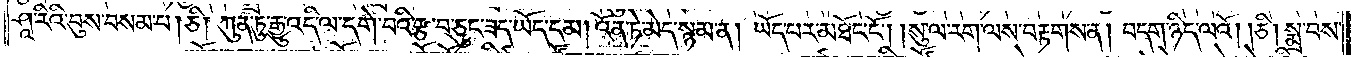ཤཱ་རིའི་བུས་བསམ་པ། ཅི། ཀུན་ཏུ་རྒྱུ་འདི་ལ་དགེ་བའི་རྩ་བ་ཅུང་ཟད་ཡོད་དམ། འོན་ཏེ་མེད་སྙམ་ན། ཡོད་པར་མཐོང་ངོ༌། །སུ་ལ་རག་ལས་བརྟགས་ན། བདག་ཉིད་ལའོ། །ཅི། སྨྲ་བས་
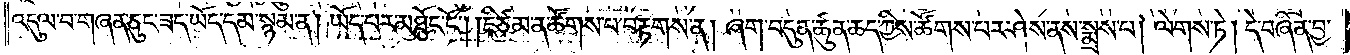འདུལ་བ་གཞན་ཅུང་ཟད་ཡོད་དམ་སྙམ་ན། ཡོད་པར་མཐོང་ངོ༌། །ཇི་ཙམ་ན་ཚོགས་པ་བརྟགས་ན། ཞག་བདུན་ཚུན་ཆད་ཀྱིས་ཚོགས་པར་ཤེས་ནས་སྨྲས་པ། ལེགས་ཏེ། དེ་བཞིན་བྱ་
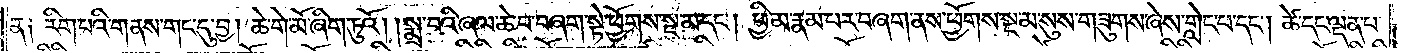ན༑ རིག་པའི་གནས་གང་དུ་བྱ། ཆེ་གེ་མོ་ཞིག་ཏུའོ། །སྨྲ་བའི་ཞལ་ཆེ་བ་བཞག་སྟེ་ཕྱོགས་སྔ་མ་དང༌། ཕྱི་མ་རྣམ་པར་བཞག་ནས་ཕྱོགས་སྔ་མ་སུས་གཟུགས་ཞེས་གླེང་པ་དང༌། ཚེ་དང་ལྡན་པ་
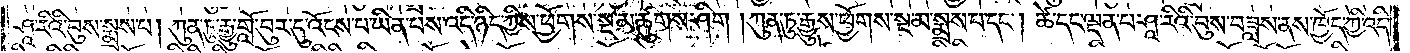ཤཱ་རིའི་བུས་སྨྲས་པ། ཀུན་ཏུ་རྒྱུ་གློ་བུར་དུ་འོངས་པ་ཡིན་པས་འདི་ཉིད་ཀྱིས་ཕྱོགས་སྔ་མ་ཚུགས་ཤིག ། ཀུན་ཏུ་རྒྱུས་ཕྱོགས་སྔ་མ་སྨྲས་པ་དང༌། ཚེ་དང་ལྡན་པ་ཤཱ་རིའི་བུས་བཟླས་ནས་ཁྱོད་ཀྱི་འདི་
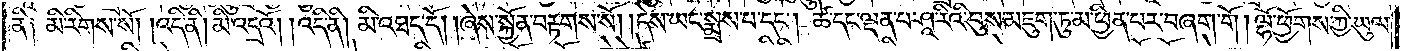ནི། མི་རིགས་སོ། །འདི་ནི། མི་འདྲའོ། །འདི་ནི། མི་འཐད་དོ། །ཞེས་སྐྱོན་བརྟགས་སོ། །དེས་ཡང་སྨྲས་པ་དང༌། ཚེ་དང་ལྡན་པ་ཤཱ་རིའི་བུས་མཇུག་ཏུ་མ་ཕྱིན་བར་བཞག་གོ། ལྷོ་ཕྱོགས་ཀྱི་ཡུལ་
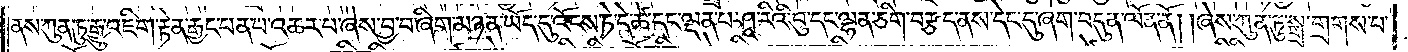ནས་ཀུན་ཏུ་རྒྱུ་འཇིག་རྟེན་རྒྱང་པན་པ་འཆར་པ་ཞེས་བྱ་བ་ཞིག་མཉན་ཡོད་དུ་འོངས་ཏེ་དེ་ཚེ་དང་ལྡན་པ་ཤཱ་རིའི་བུ་དང་ལྷན་ཅིག་བརྩད་ནས་དེང་དུ་ཞག་བདུན་ལོན་ནོ། །ཞེས་ཀུན་ཏུ་སྒྲ་གྲགས་པ་
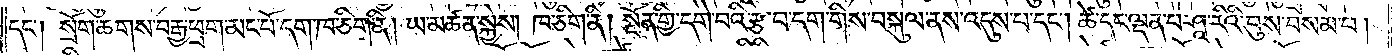དང༌། སྲོག་ཆགས་བརྒྱ་ཕྲག་མང་པོ་དག་ཁ་ཅིག་ནི། ཡ་མཚན་སྐྱེས། ཁ་ཅིག་ནི། སྔོན་གྱི་དགེ་བའི་རྩ་བ་དག་གིས་བསྐུལ་ནས་འདུས་པ་དང༌། ཚེ་དང་ལྡན་པ་ཤཱ་རིའི་བུས་བསམ་པ།
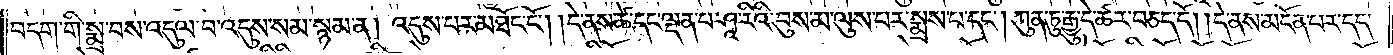བདག་གི་སྨྲ་བས་འདུལ་བ་འདུས་སམ་སྙམ་ན། འདུས་པར་མཐོང་ངོ༌། །དེ་ནས་ཚེ་དང་ལྡན་པ་ཤཱ་རིའི་བུས་མ་ལུས་པར་སྨྲས་པ་དང༌། ཀུན་ཏུ་རྒྱུ་དེ་ཚར་བཅད་དོ། །དེ་ནས་མངོན་པར་དད་
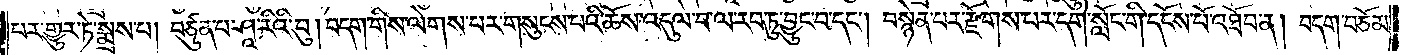བར་གྱུར་ཏེ་སྨྲས་པ། བཙུན་པ་ཤཱ་རིའི་བུ། བདག་གིས་ལེགས་པར་གསུངས་པའི་ཆོས་འདུལ་བ་ལ་རབ་ཏུ་བྱུང་བ་དང༌། བསྙེན་པར་རྫོགས་པར་དགེ་སློང་གི་དངོས་པོ་འཐོབ་ན། བདག་བཅོམ་
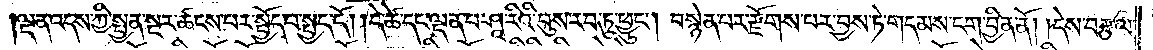ལྡན་འདས་ཀྱི་སྤྱན་སྔར་ཚངས་པར་སྤྱོད་པ་སྤྱད་དོ། །དེ་ཚེ་དང་ལྡན་པ་ཤཱ་རིའི་བུས་རབ་ཏུ་ཕྱུང༌། བསྙེན་པར་རྫོགས་པར་བྱས་ཏེ་གདམས་ངག་བྱིན་ནོ། །དེས་བརྩལ་
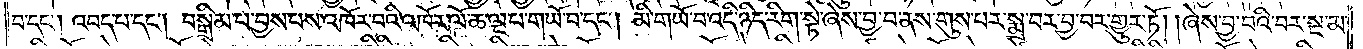བ་དང༌། འབད་པ་དང༌། བསྒྲིམ་པ་བྱས་པས་འཁོར་བའི་འཁོར་ལོ་ཆ་ལྔ་པ་གཡོ་བ་དང༌། མི་གཡོ་བ་འདི་ཉིད་རིག་སྟེ་ཞེས་བྱ་བ་ནས་གུས་པར་སྨྲ་བར་བྱ་བར་གྱུར་ཏོ། །ཞེས་བྱ་བའི་བར་སྔ་མ་
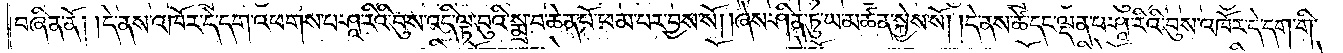བཞིན་ནོ། །དེ་ནས་འཁོད་དེ་དག་འཕགས་པ་ཤཱ་རིའི་བུས་འདི་ལྟ་བུའི་སྨྲ་བ་ཆེན་པོ་ཕམ་པར་བྱས་སོ། །ཞེས་ཤིན་ཏུ་ཡ་མཚན་སྐྱེས་སོ། །དེ་ནས་ཚེ་དང་ལྡན་པ་ཤཱ་རིའི་བུས་འཁོར་དེ་དག་གི་
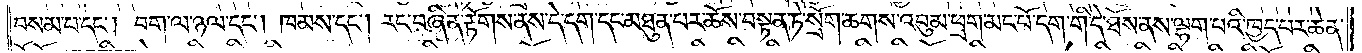བསམ་པ་དང༌། བག་ལ་ཉལ་དང༌། ཁམས་དང༌། རང་བཞིན་རྟོགས་ནས་དེ་དག་དང་མཐུན་པར་ཆོས་བསྟན་ཏེ་སྲོག་ཆགས་འབུམ་ཕྲག་མང་པོ་དག་གི་དེ་ཐོས་ནས་ལྷག་པའི་ཁྱད་པར་ཆེན་
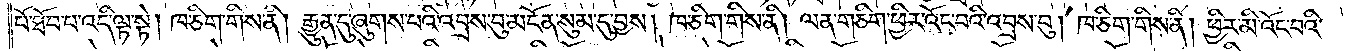པོ་ཐོབ་པ་འདི་ལྟ་སྟེ། ཁ་ཅིག་གིས་ནི། རྒྱུན་དུ་ཞུགས་པའི་འབྲས་བུ་མངོན་སུམ་དུ་བྱས། ཁ་ཅིག་གིས་ནི། ལན་གཅིག་ཕྱིར་འོང་བའི་འབྲས་བུ། ཁ་ཅིག་གིས་ནི། ཕྱིར་མི་འོང་བའི་
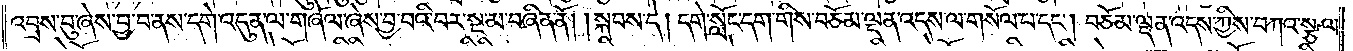འབྲས་བུ་ཞེས་བྱ་བ་ནས་དགེ་འདུན་ལ་གཞོལ་ཞེས་བྱ་བའི་བར་སྔ་མ་བཞིན་ནོ། །སྐབས་དེ། དགེ་སློང་དག་གིས་བཅོམ་ལྡན་འདས་ལ་གསོལ་པ་དང༌། བཅོམ་ལྡན་འདས་ཀྱིས་བཀའ་སྩལ་
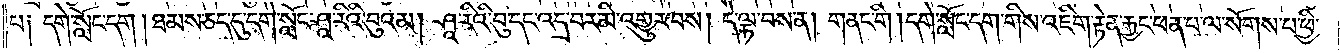པ༑ དགེ་སློང་དག །ཐམས་ཅད་དུ་དགེ་སློང་ཤཱ་རིའི་བུའམ། ཤཱ་རིའི་བུ་དང་འདྲ་བར་མི་འགྱུར་བས། དེ་ལྟ་བས་ན། གནང་གི །དགེ་སློང་དག་གིས་འཇིག་རྟེན་རྒྱང་ཕན་པ་ལ་སོགས་པ་ཕྱི་
